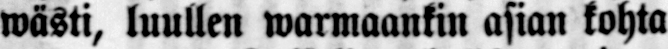wästi, luullen warmaankin asian kohta
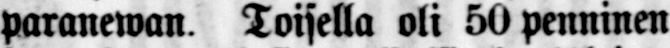paranewan Toisella oli 50 penninen
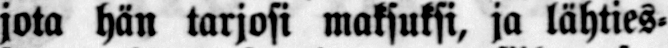jota hän tarjosi maksuksi, ja lähties-
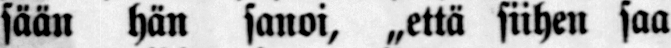sään hän sanoi, „että siihen saa
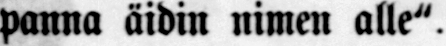panna äidin nimen alle".
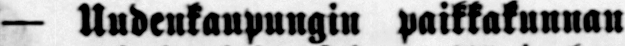— Uudenkaupungin paikkakunnan
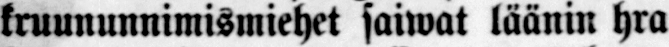kruununnimismiehet soiwat läänin hra
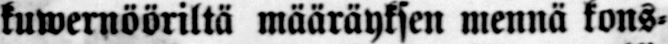kuwernööriltä määräyksen mennä kons-
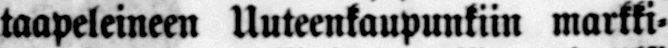taapeleilleen Uuteenkaupunkiin markki-
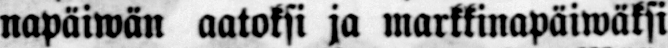napäiwän aatoksi ja markkinapäiwäksi
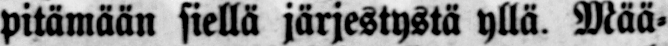pitämään siellä järjestystä yllä. Mää-
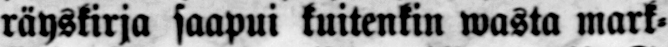räyskirja saapui kuitenkin wasta mark-
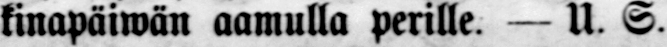kinapäiwän aamulla perille. — U. S.
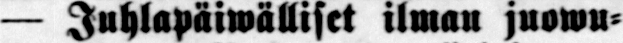— Juhlapäiwälliset ilman juowu-
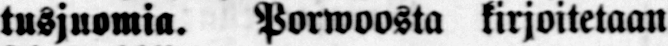tusjuomia. Porwoosta kirjoitetaan
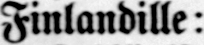Finlandille:
